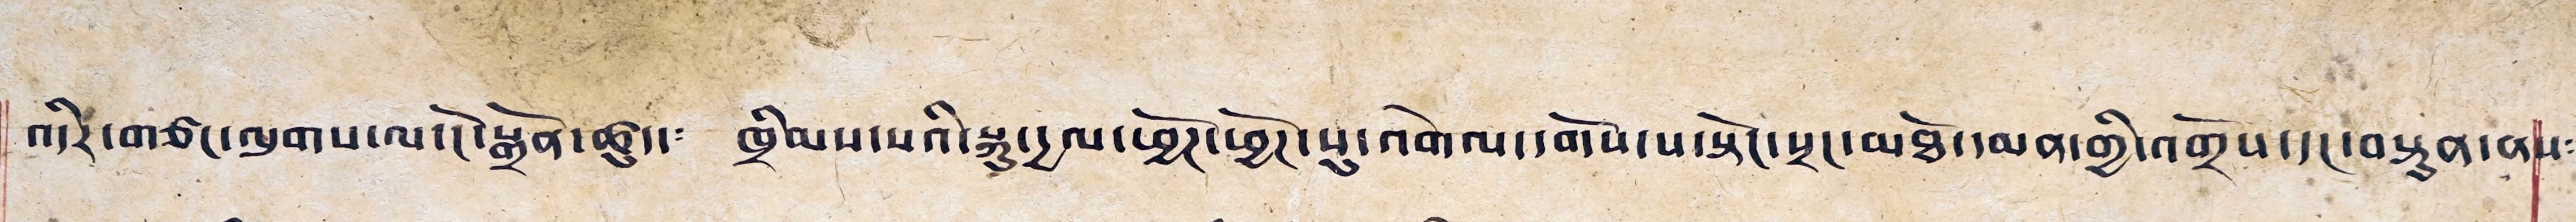འདིར་གཙང་ལུགས་ལ་ངོ་སྒྲོན་ཚུད་༴ ཁྲིམས་པའི་སྐུ་དྱལ་ཕྱོཊ་ཕྱོཊ་སུ་འགེལ་དགོས་པ་སྟོང་སྲང་མཐོ་དམན་གྱི་འགྲོས་དང་བསསྟུན་ནས༴
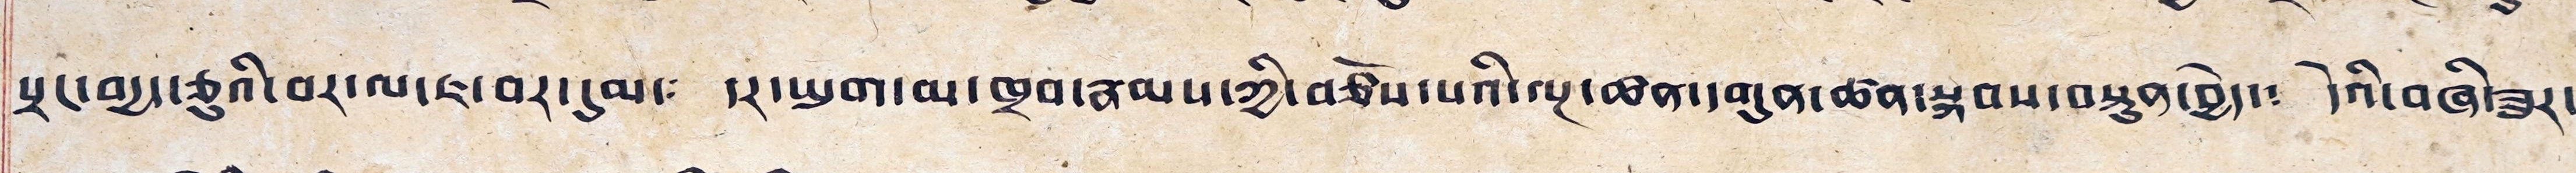སྲང་བདྱད་ཅུའི་བར་ལ་ཇ་བར་དུམ་༴ དར་ཡུག་མ་ཁྲབ་རྣམས་ཀྱི་བཙོས་པའི་ལྔ་ཚན་དགུན་ཚན་སྐབས་བསྟུན་བྱེད་༴ དེའི་བཞི་ཟུར་
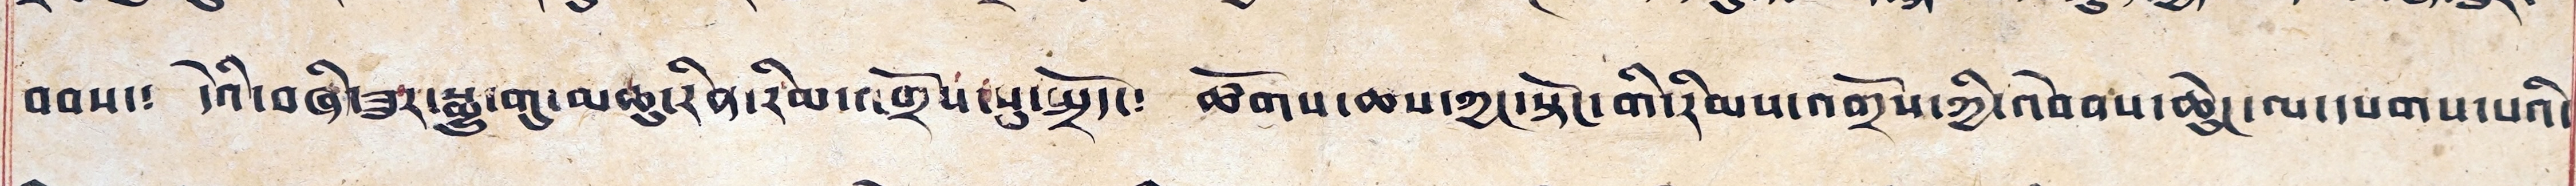བབས་༴ དེའི་བཞི་ཟུར་སྨྱུ་གུ་མཆུ་རིན་རིམ་འགྲོས་སུ་སྤྲོད་༴ ཚོགས་ཆས་ཀྱང་སྟོང་གི་རིམས་འགྲོས་ཀྱི་འབེབས་ཆེུང་ལ་དཔགས་པའི་
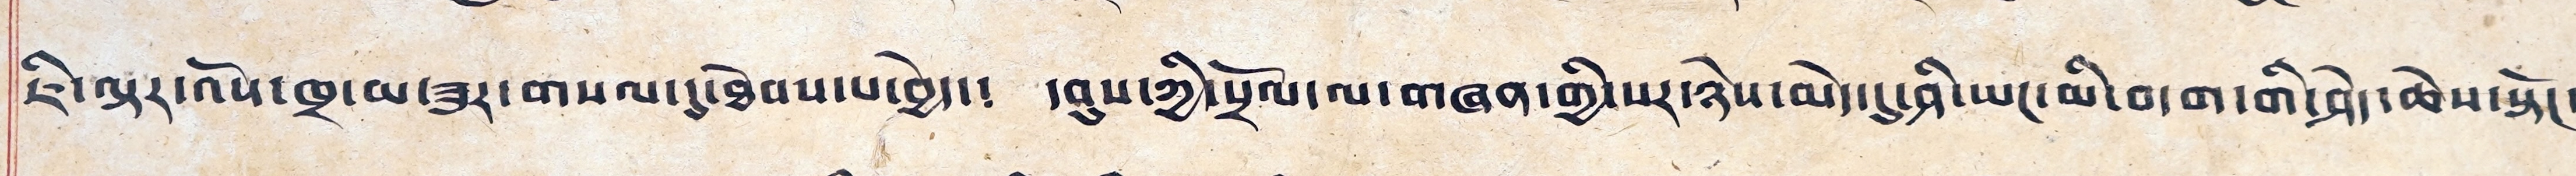ཇི་ལྟར་འོས་ཁྲ་མ་ཟུར་གསལ་དུ་ཐེབས་པ་བྱེད་༴ དབུས་ཀྱི་སྲོལ་ལ་གཞན་གྱི་སར་ཉེས་མེད་དུ་ཤི་ཡང་མི་བདག་གི་ཤེད་ཆེས་སྟོང་
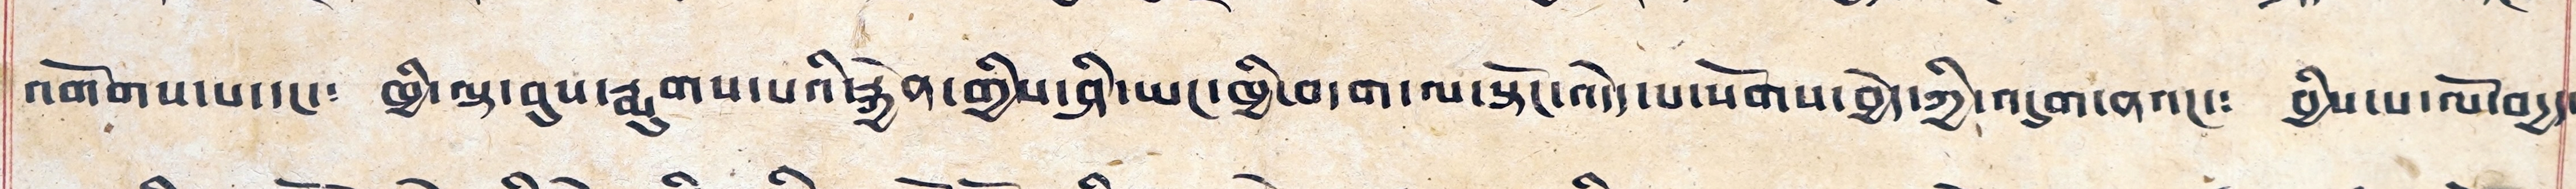འགོགས་པ་དང་༴ ཁྱི་ལྟ་བུས་རྨུགས་པའི་རྐྱེན་གྱིས་ཤི་ཡང་ཁྱི་བདག་ལ་སྟོང་འདོད་པ་སོགས་བྱེད་ཀྱི་འདུག་ནའང་༴ བྱིས་པ་ལོ་བདྱད་
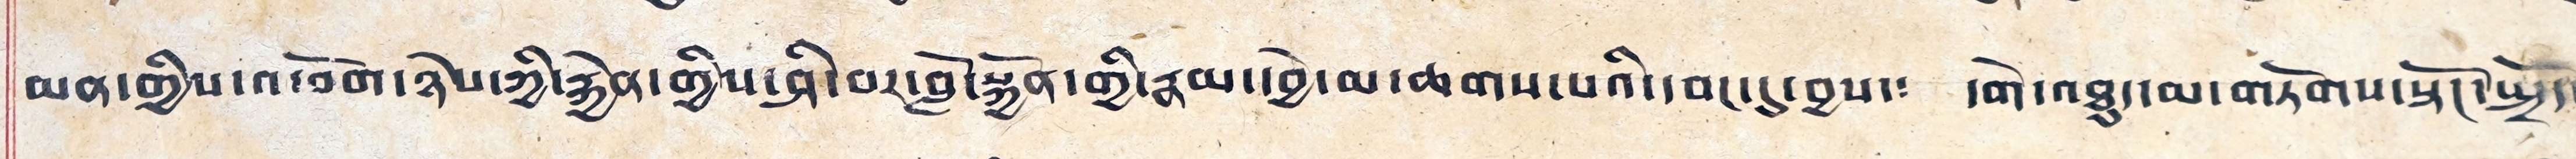མན་གྱིས་འཕོག་ཉེས་ཀྱི་རྐྱེན་གྱིས་ཤི་བར་བློ་སྐྱོན་གྱི་རྣམ་དབྱེ་མ་ཆགས་པའི་དབང་དུ་བྱས་༴ དགེ་འཐུད་མ་གཏོགས་སྟོང་སྤྲོད་
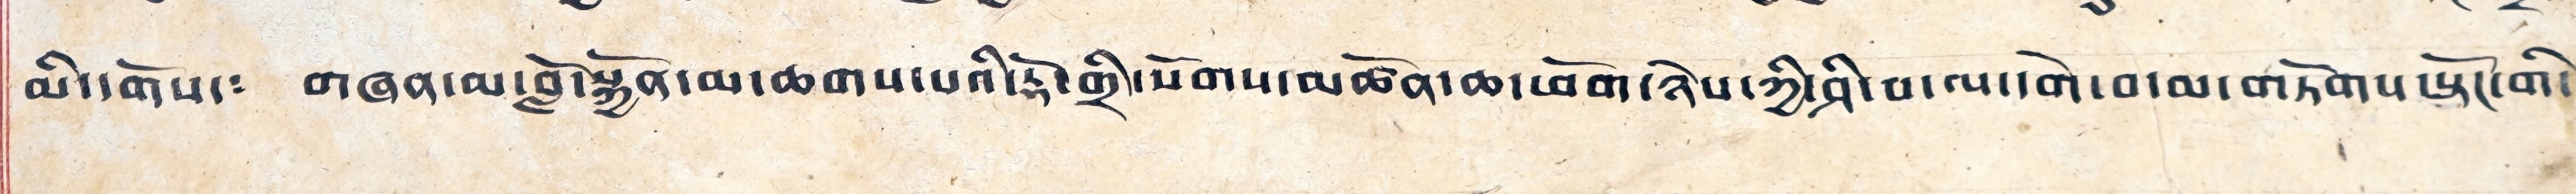མི་དགོས་༴ གཞན་མ་བློ་སྐྱོན་མ་ཆགས་པའི་རྡོ་གྲི་སོགས་མཚོན་ཆ་ཕོག་ཉེས་ཀྱི་ཤི་བ་ལ་དགེ་བ་མ་གཏོགས་སྟོང་གི་
